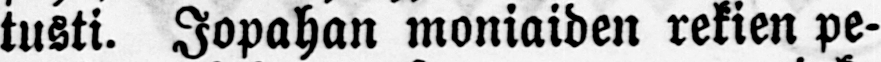tusti. Jopahan moniaiden rekien pe-
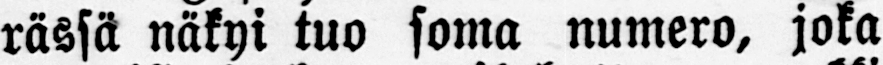rässä näkyi tuo soma numero, joka
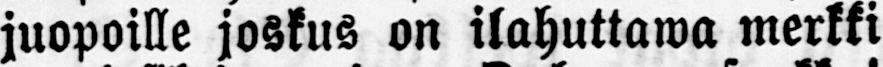juopoille joskus on ilahuttawa merkki
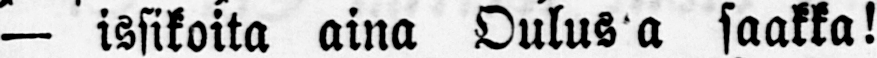— issikoita aina Oulusa saakka!
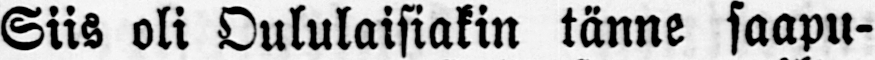Siis oli Oululaisiakin tänne saapu-
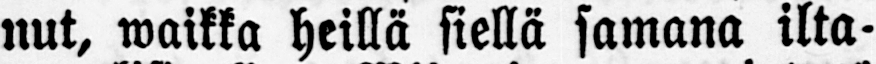nut, waikka heillä siellä samana ilta-
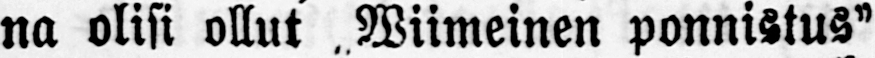na olisi ollut . Wiimeinen ponnistus"
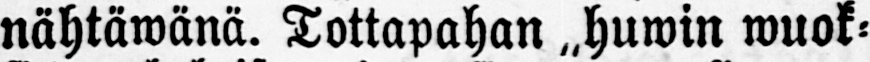nähtäwänä. Tottapahan "huwin wuok-
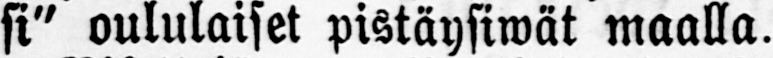si" oululaiset pistäysiwät maalla.
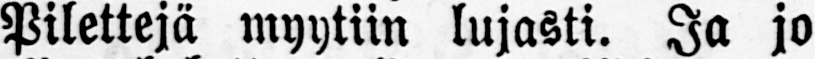Pilettejä myytiin lujasti. Ja jo
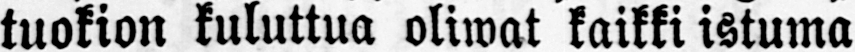tuokion kuluttua oliwat kaikki istuma
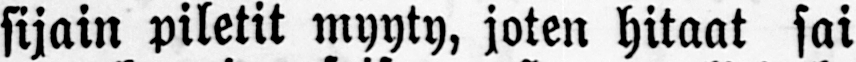sijain piletit myyty, joten hitaat sai
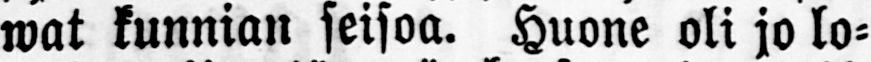wat kunnian seisoa. Huone oli jo lo-
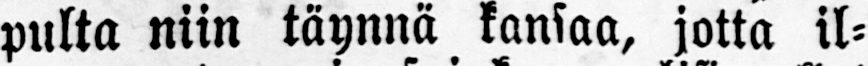pulta niin täynnä kansaa, jotta il-
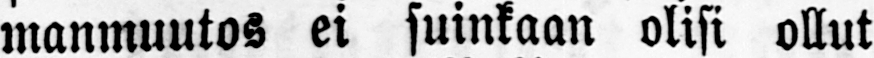manmuutos ei suinkaan olisi ollut
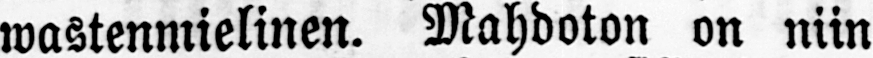wastenmielinen. Mahdoton on niin
